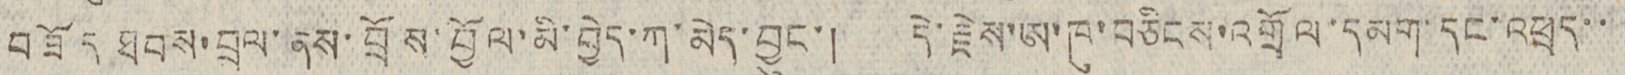བཟོད ཐབས་བྲལ་ནས་བྲོས་བྱོལ་མི་བྱེད་ཀ་མེད་བྱུང་། དེ་རྗེས་ཨ་ཁུ་བཅིངས་འགྲོལ་དམག་དང་འཕྲད་་
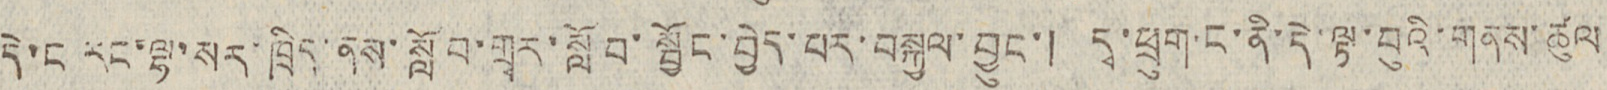དེ་ང རང་ལྷ་སར་ཁྲིད་ནས་སློབ་གྲྭར་སློབ་སྦྱོང་བྱེད་པར་བསྐྱལ་བྱུང་། དྭ་ཕྲུག་ང་ནི་དེ་ལྟ་བུའི་གནས་ཚུལ
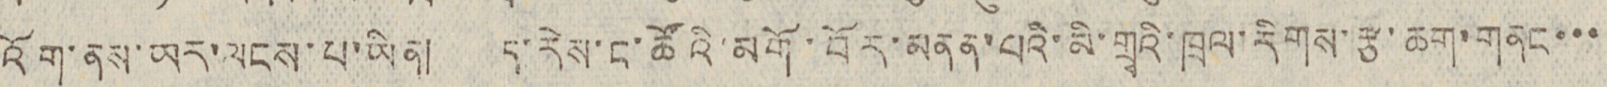འོག་ནས་ཡར་ལངས་པ་ཡིན། ད་རེས་ང་ཚོའི་མགོ་བོར་མནན་པའི་མི་གྲྭའི་ཁྲལ་རིགས་རྩ་ཆག་གནང་་་
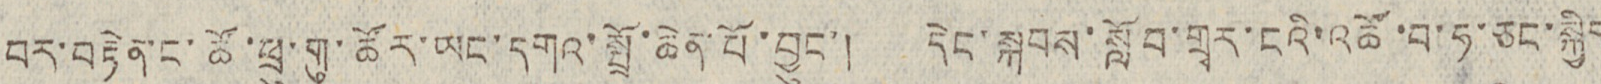བར་བརྟེན་ང་ཚོ་ཕྲུ་གུ་ཚོར་ཡང་དགའ་སྤྲོ་ཆེན་པོ་བྱུང་། དེང་སྐབས་སློབ་གྲྭར་ངའི་འཚོ་བ་ཧ་ཅང་སྐྱིད
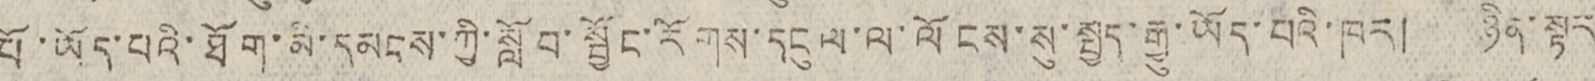པོ་ཡོད་པའི་ཐོག་མི་དམངས་ཀྱི་སློབ་སྦྱོང་རོགས་དངུལ་ལ་ལོངས་སུ་སྤྱད་རྒྱུ་ཡོད་པའི་ཁར། ཉིན་སྟར
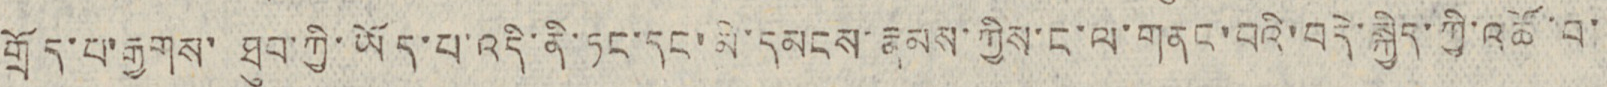གྲོད་པ་རྒྱགས་ ཐུབ་ཀྱི་ཡོད་པ་འདི་ནི་ཏང་དང་མི་དམངས་རྣམས་ཀྱིས་ང་ལ་གནང་བའི་བདེ་སྐྱིད་ཀྱི་འཚོ་བ་
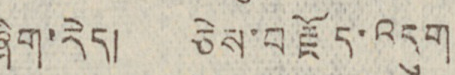ཞིག་རེད། ཅེས་བརྗོད་འདུག
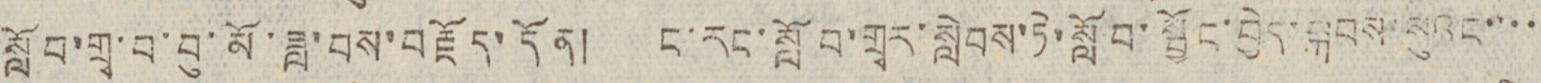སློབ་གྲྭ་བ་བུ་མོ་ཟླ་བས་བརྗོད་དོན། ང་རང་སློབ་གྲྭར་སླེབས་ཏེ་སློབ་སྦྱོང་བྱེད་སྐབས་སུའང་་་་
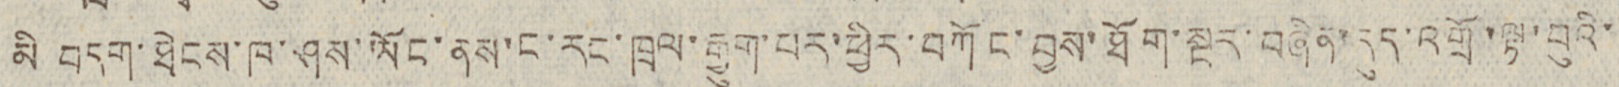མི བདག་ཐེངས་ཁ་ཤས་ཡོང་ནས་ང་རང་ཁྲལ་རྒྱུག་པར་ཕྱིར་བཀོང་བྱས་ཐོག་སྔར་བཞིན་དུད་འགྲོ་ལྟ་བུའི་
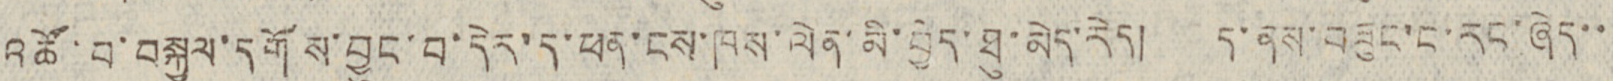འཚོ་བ་སྐྱལ་དགོས་བྱུང་བ་དེར་ད་ཕན་ངས་ཁས་ལེན་མི་བྱེད་ཐུ་མེད་རེད། ད་ནས་བཟུང་ང་རང་ཞེད་་
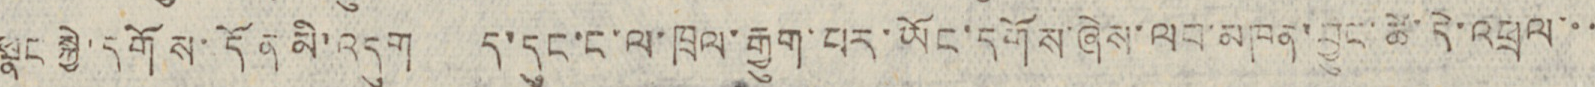སྣང སྐྱེ་དགོས་དོན མི་འདུག ད་དུང་ང་ལ་ཁྲལ་རྒྱུག་པར་ཡོང་དགོས་ཞེས་ལབ་མཁན་བྱུང་ཚེ་དེ་འཕྲལ་་་
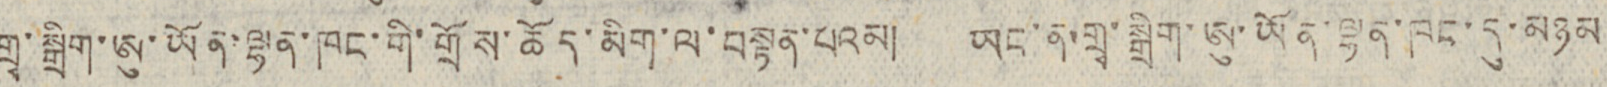གྲྭ་སྒྲིག་ཨུ་ཡོན་ལྷན་ཁང་གི་གྲོས་ཆོད་མིག་ལ་བསྟན་པའམ། ཡང་ན་གྲྭ་སྒྲིག་ཨུ་ཡོན་ལྷན་ཁང་དུ་མཉམ
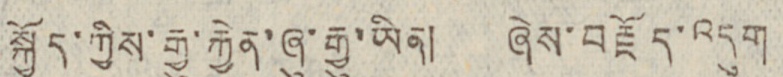སྐྱོད་ཀྱིས་རྒྱུ་རྐྱེན་ཞུ་རྒྱུ་ཡིན། ཞེས་བརྗོད་འདུག
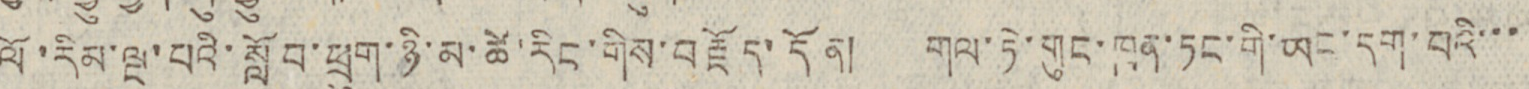ལོ་རིམ་ལྔ་པའི་སློབ་ཕྲུག་ཉི་མ་ཚེ་རིང་གིས་བརྗོད་དོན། གལ་ཏེ་གུང་ཁྲན་ཏང་གི་ཡང་དག་པའི་་་
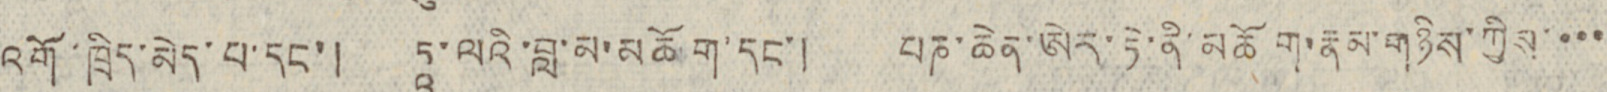འགོ་ཁྲིད་མེད་པ་དང་། ཏཱ་ལའི་བླ་མ་མཆོག་དང་། པཎ་ཆེན་ཨེར་ཏེ་ནི་མཆོག་རྣམ་གཉིས་ཀྱིས་་་་
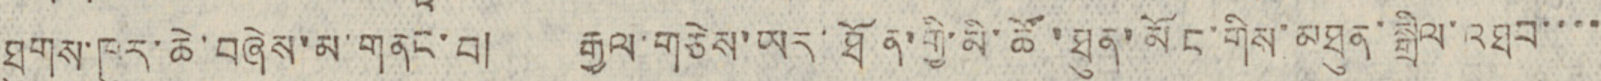ཐུགས་ཁུར་ཆེ་བཞེས་མ་གནང་བ། རྒྱལ་གཅེས་ཡར་ཐོན་གྱི་མི་ཚོ་ཐུན་མོང་གིས་མཐུན་སྒྲིལ་འཐབ་་་་
